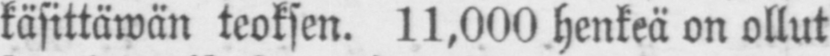käsittäwän teoksen. 11,000 henkeä on ollut
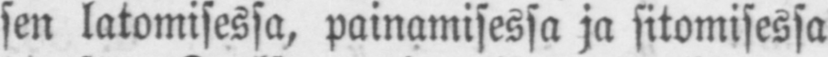sen latomisessa, painamisessa ja sitomisessa
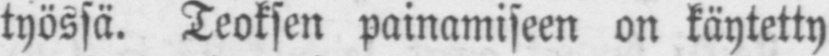työssä. Teoksen painamiseen on käytetty
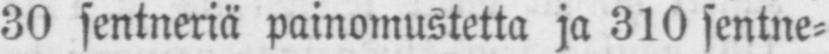30 sentneriä painomustetta ja 310 sentne-
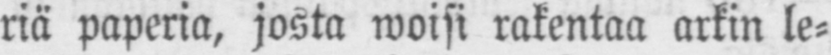riä paperia, josta woisi rakentaa arkin le-
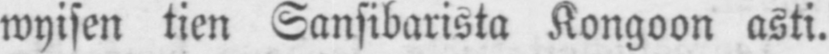wyisen tien Sansibarista Kongoon asti.
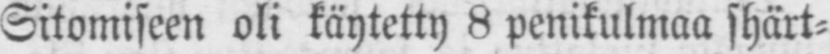Sitomiseen oli käytetty 8 penikulmaa shärt-
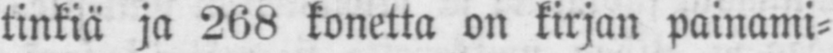tinkiä ja 268 konetta on kirjan painami-
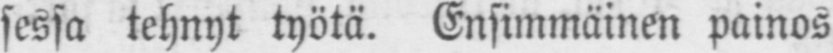sessa tehnyt työtä. Ensimmäinen painos
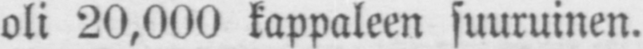oli 20,000 kappaleen suuruinen.
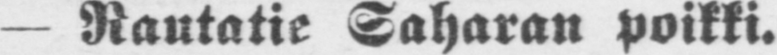— Rautatie Saharan poikki.
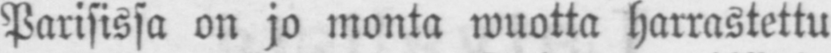Parisissa on jo monta wuotta harrastettu
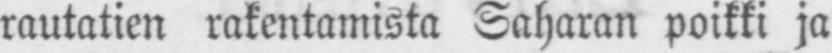rautatien rakentamista Saharan poikki ja
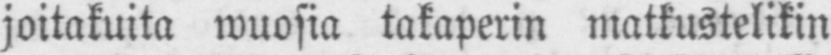joitakuita wuosia takaperin matkustelikin
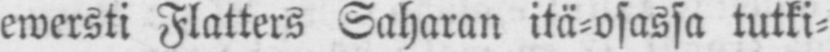ewersti Flatters Saharan itä-osassa tutki-
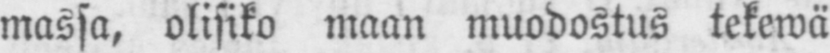massa, olisiko maan muodostus tekewä
